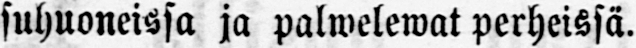suhuoneissa ja palwelewat perheissä.
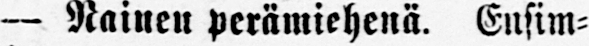— Nainen perämiehenä. Ensim-
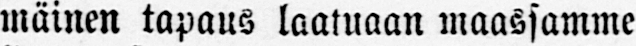mäinen tapaus laatuaan maassamme
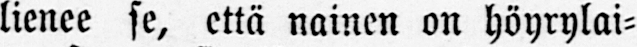lienee se, että nainen on höyrylai-
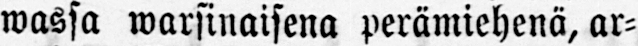wassa warsinaisena perämiehenä, ar-
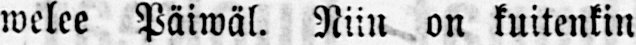welee Päiwäl. Niin on kuitenkin
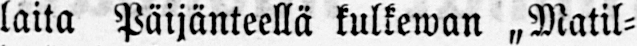laita Päijänteellä kulkewan „Matil-
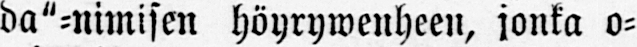da"-nimisen höyrywenheen, jonka o-
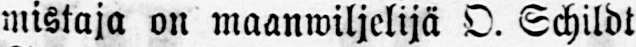mistaja on maanwiljelijä O. Schildt
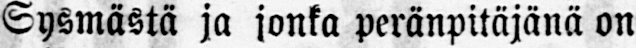Sysmästä ja jonka peränpitäjänä on
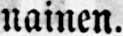nainen.
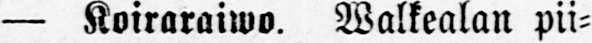— Koiraraiwo. Walkealan pii-
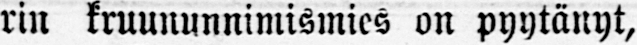rin kruununnimismies on pyytänyt,
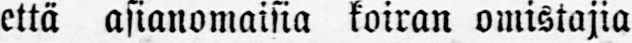että asianomaisia koiran omistajia
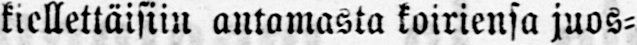kiellettäisiin antamasta koiriensa juos-
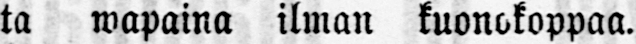ta wapaina ilman kuonokoppaa.
